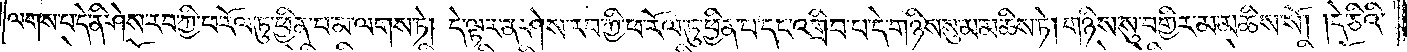ལགས་པ་དེ་ནི་ཤེས་རབ་ཀྱི་ཕ་རོལ་ཏུ་ཕྱིན་པ་མ་ལགས་ཏེ། དེ་ལྟར་ན་ཤེས་རབ་ཀྱི་ཕ་རོལ་ཏུ་ཕྱིན་པ་དང་འགྲིབ་པ་དེ་གཉིས་སུ་མ་མཆིས་ཏེ། གཉིས་སུ་བགྱིར་མ་མཆིས་སོ། །དེ་ཅིའི་
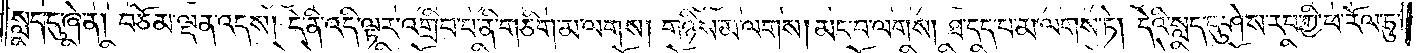སླད་དུ་ཞེ་ན། བཅོམ་ལྡན་འདས་དེ་ནི་འདི་ལྟར་འགྲིབ་པ་ནི་གཅིག་མ་ལགས། གཉིས་མ་ལགས། མང་བ་མ་ལགས། ཐ་དད་པ་མ་ལགས་ཏེ། དེའི་སླད་དུ་ཤེས་རབ་ཀྱི་ཕ་རོལ་ཏུ་
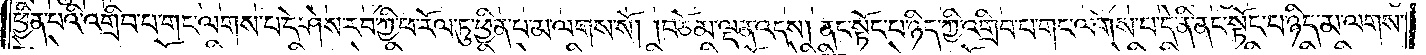ཕྱིན་པའི་འགྲིབ་པ་གང་ལགས་པ་དེ་ཤེས་རབ་ཀྱི་ཕ་རོལ་ཏུ་ཕྱིན་པ་མ་ལགས་སོ། །བཅོམ་ལྡན་འདས། ནང་སྟོང་པ་ཉིད་ཀྱི་འགྲིབ་པ་གང་ལགས་པ་དེ་ནི་ནང་སྟོང་པ་ཉིད་མ་ལགས་
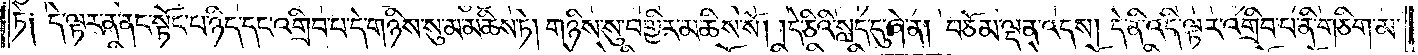ཏེ༑ དེ་ལྟར་ན་ནང་སྟོང་པ་ཉིད་དང་འགྲིབ་པ་དེ་གཉིས་སུ་མ་མཆིས་ཏེ། གཉིས་སུ་བགྱིར་མ་ཆིས་སོ། །དེ་ཅིའི་སླད་དུ་ཞེ་ན། བཅོམ་ལྡན་འདས། དེ་ནི་འདི་ལྟར་འགྲིབ་པ་ནི་གཅིག་མ་
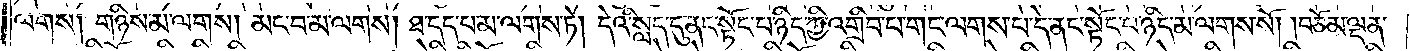ལགས། གཉིས་མ་ལགས། མང་བ་མ་ལགས། ཐ་དད་པ་མ་ལགས་ཏེ། དེའི་སླད་དུ་ནང་སྟོང་པ་ཉིད་ཀྱི་འགྲིབ་པ་གང་ལགས་པ་དེ་ནང་སྟོང་པ་ཉིད་མ་ལགས་སོ། །བཅོམ་ལྡན་
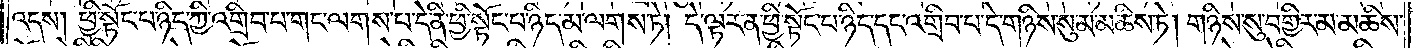འདས། ཕྱི་སྟོང་པ་ཉིད་ཀྱི་འགྲིབ་པ་གང་ལགས་པ་དེ་ནི་ཕྱི་སྟོང་པ་ཉིད་མ་ལགས་ཏེ། དེ་ལྟར་ན་ཕྱི་སྟོང་པ་ཉིད་དང་འགྲིབ་པ་དེ་གཉིས་སུ་མ་མཆིས་ཏེ། གཉིས་སུ་བགྱིར་མ་མཆིས་
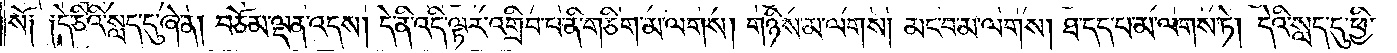སོ༑ ༑ དེ་ཅིའི་སླད་དུ་ཞེ་ན། བཅོམ་ལྡན་འདས། དེ་ནི་འདི་ལྟར་འགྲིབ་པ་ནི་གཅིག་མ་ལགས། གཉིས་མ་ལགས། མང་བ་མ་ལགས། ཐ་དད་པ་མ་ལགས་ཏེ། དེའི་སླད་དུ་ཕྱི་
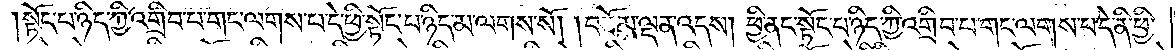སྟོང་པ་ཉིད་ཀྱི་འགྲིབ་པ་གང་ལགས་པ་དེ་ཕྱི་སྟོང་པ་ཉིད་མ་ལགས་སོ། །བཅོམ་ལྡན་འདས། ཕྱི་ནང་སྟོང་པ་ཉིད་ཀྱི་འགྲིབ་པ་གང་ལགས་པ་དེ་ནི་ཕྱི་
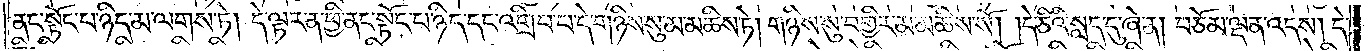ནང་སྟོང་པ་ཉིད་མ་ལགས་ཏེ། དེ་ལྟར་ན་ཕྱི་ནང་སྟོང་པ་ཉིད་དང་འགྲིབ་པ་དེ་གཉིས་སུ་མ་མཆིས་ཏེ། གཉིས་སུ་བགྱིར་མ་མཆིས་སོ། དེ་ཅིའི་སླད་དུ་ཞེ་ན། བཅོམ་ལྡན་འདས། དེ་
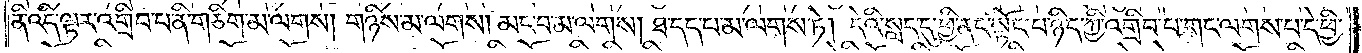ནི་འདི་ལྟར་འགྲིབ་པ་ནི་གཅིག་མ་ལགས། གཉིས་མ་ལགས། མང་བ་མ་ལགས། ཐ་དད་པ་མ་ལགས་ཏེ། དེའི་སླད་དུ་ཕྱི་ནང་སྟོང་པ་ཉིད་ཀྱི་འགྲིབ་པ་གང་ལགས་པ་དེ་ཕྱི་
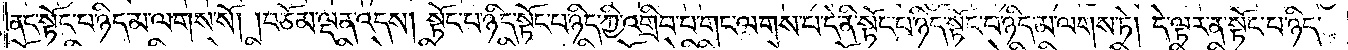ནང་སྟོང་པ་ཉིད་མ་ལགས་སོ། །བཅོམ་ལྡན་འདས། སྟོང་པ་ཉིད་སྟོང་པ་ཉིད་ཀྱི་འགྲིབ་པ་གང་ལགས་པ་དེ་ནི་སྟོང་པ་ཉིད་སྟོང་པ་ཉིད་མ་ལགས་ཏེ། དེ་ལྟར་ན་སྟོང་པ་ཉིད་
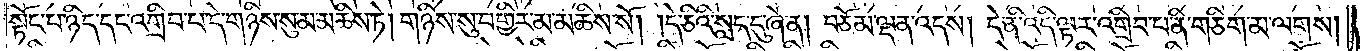སྟོང་པ་ཉིད་དང་འགྲིབ་པ་དེ་གཉིས་སུ་མ་མཆིས་ཏེ། གཉིས་སུ་བགྱིར་མ་མཆིས་སོ། །དེ་ཅིའི་སླད་དུ་ཞེ་ན། བཅོམ་ལྡན་འདས། དེ་ནི་འདི་ལྟར་འགྲིབ་པ་ནི་གཅིག་མ་ལགས།
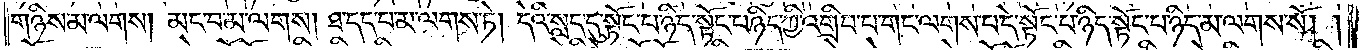གཉིས་མ་ལགས། མང་བ་མ་ལགས། ཐ་དད་པ་མ་ལགས་ཏེ། དེའི་སླད་དུ་སྟོང་པ་ཉིད་སྟོང་པ་ཉིད་ཀྱི་འགྲིབ་པ་གང་ལགས་པ་དེ་སྟོང་པ་ཉིད་སྟོང་པ་ཉིད་མ་ལགས་སོ། །
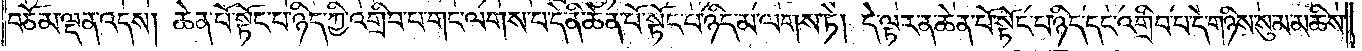བཅོམ་ལྡན་འདས། ཆེན་པོ་སྟོང་པ་ཉིད་ཀྱི་འགྲིབ་པ་གང་ལགས་པ་དེ་ནི་ཆེན་པོ་སྟོང་པ་ཉིད་མ་ལགས་ཏེ། དེ་ལྟར་ན་ཆེན་པོ་སྟོང་པ་ཉིད་དང་འགྲིབ་པ་དེ་གཉིས་སུ་མ་མཆིས་
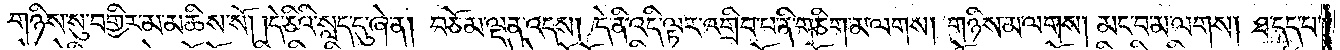གཉིས་སུ་བགྱིར་མ་མཆིས་སོ། །དེ་ཅིའི་སླད་དུ་ཞེ་ན། བཅོམ་ལྡན་འདས། དེ་ནི་འདི་ལྟར་འགྲིབ་པ་ནི་གཅིག་མ་ལགས། གཉིས་མ་ལགས། མང་བ་མ་ལགས། ཐ་དད་པ་
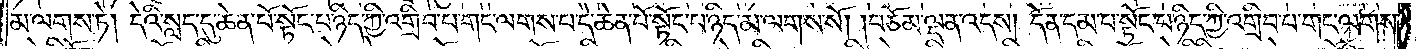མ་ལགས་ཏེ། དེའི་སླད་དུ་ཆེན་པོ་སྟོང་པ་ཉིད་ཀྱི་འགྲིབ་པ་གང་ལགས་པ་དེ་ཆེན་པོ་སྟོང་པ་ཉིད་མ་ལགས་སོ། །བཅོམ་ལྡན་འདས། དོན་དམ་པ་སྟོང་པ་ཉིད་ཀྱི་འགྲིབ་པ་གང་ལགས་
